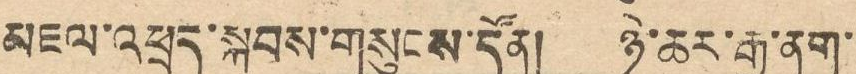མཇལ་འཕྲད་སྐབས་གསུངས་དོན། ཉེ་ཆར་རྒྱ་ནག་
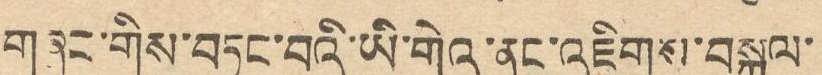གཞུང་གིས་བཏང་བའི་ཡི་གེའི་ནང་འཇིགས་བསྐུལ་
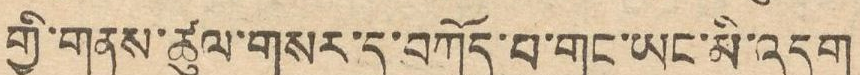གྱི་གནས་ཚུལ་གསར་དུ་བཀོད་པ་གང་ཡང་མི་འདུག
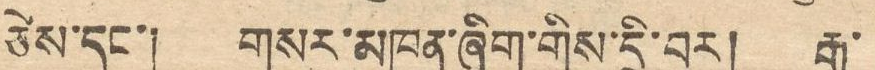ཅེས་དང་། གསར་མཁན་ཞིག་གིས་དྲི་བར། རྒྱ་
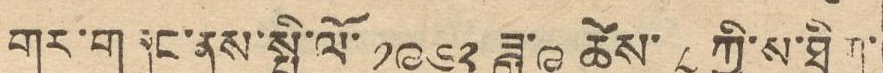གར་གཞུང་ནས་སྤྱི་ལོ་ ༡༩༦༢ ཟླ་༩ ཚེས་ ༨ ཀྱི་མ་ཐིག་
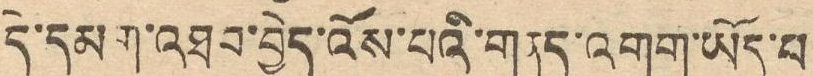དེ་དམག་འཐབ་བྱེད་འོས་པའི་གནད་འགག་ཡོད་པ
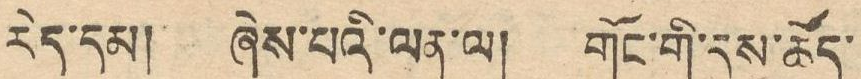རེད་དམ། ཞེས་པའི་ལན་ལ། གོང་གི་དུས་ཚོད་
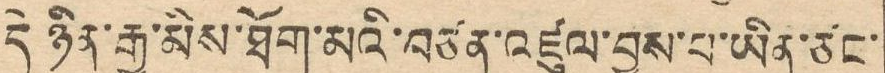དེ ཉིན་རྒྱ་མིས་ཐོག་མའི་བཙན་འཛུལ་བྱས་པ་ཡིན་ཙང་
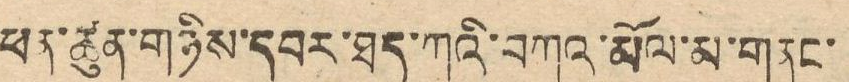ཕན་ཚུན་གཉིས་དབར་ཐད་ཀའི་བཀའ་མོལ་ལ་གནང་
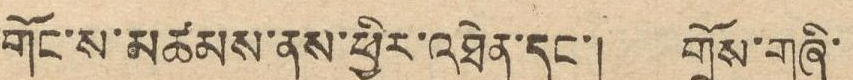གོང་ས་མཚམས་ནས་ཕྱིར་འཐེན་དང་། གྲོས་གཞི་
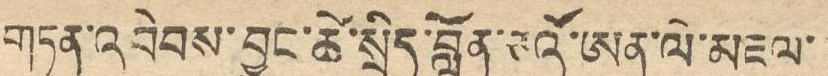གཏན་འབེབས་བྱུང་ཚེ་སྲིད་བློན་ཅའོ་ཨན་ལེ་མཇལ་
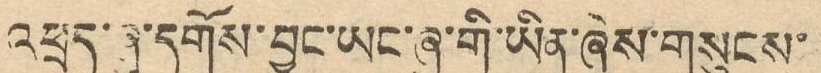འཕྲན་ཞུ་དགོས་བྱུང་ཡང་ཞུ་གི་ཡིན་ཞེས་གསུངས་
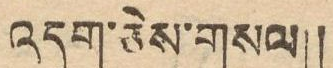འདུག་ཅེས་གསལ།།
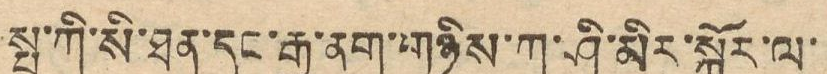སྤ་ཀི་སི་ཐན་དང་རྒྱ་ནག་གཉིས་ཀ་ཤི་མིར་སྐོར་ལ་
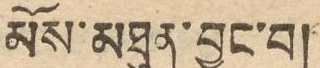མོས་མཐུན་བྱུང་བ།
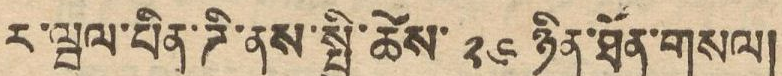ར་ཝལ་པིན་ཌི་ནས་སྤྱི་ཚེས་ ༢༦ ཉིན་ཐོན་གསལ།
